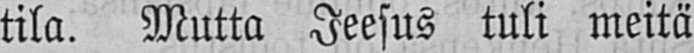tila. Mutta Jeesus tuli meitä
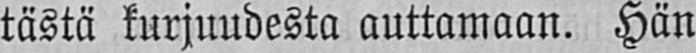tästä kurjuudesta auttamaan. Hän
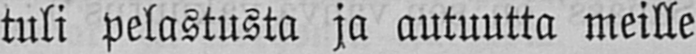tuli pelastusta ja autuutta meille
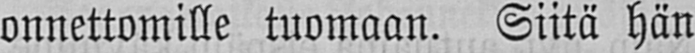onnettomille tuomaan. Siitä hän
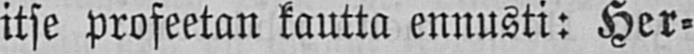itse profeetan kautta ennusti: Her-
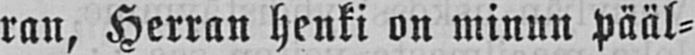ran, Herran henki on minun pääl-
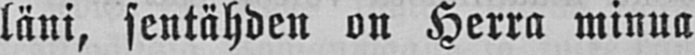läni, sentähden on Herra minua
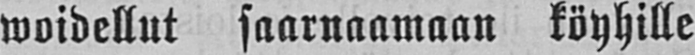woidellut saarnaamaan köyhille
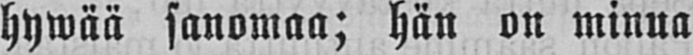hywää sanomaa; hän on minua
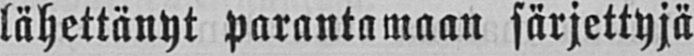lähettänyt parantamaan särjettyjä
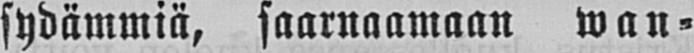sydämmiä, saarnaamaan wan-
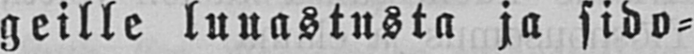geille luuastusta ja sido-
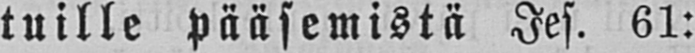tuille pääsemistä Jes. 61:
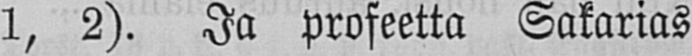1, 2). Ja profeetta Sakarias
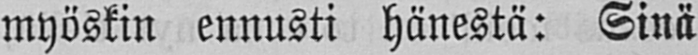myöskin ennusti hänestä: Sinä
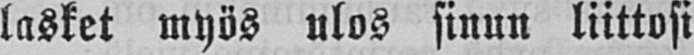lasket myös ulos sinun liittosi
